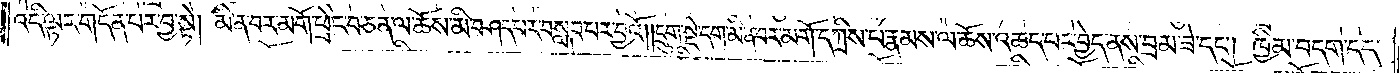འདི་ལྟར་གདོན་པར་བྱ་སྟེ། མི་ན་བར་མགོ་ཕྲེང་བ་ཅན་ལ་ཆོས་མི་བཤད་པར་བསླབ་པར་བྱའོ། །དྲུག་སྡེ་དག་མི་ན་བར་མགོ་དཀྲིས་པ་རྣམས་ལ་ཆོས་འཆད་པར་བྱེད་ནས་བྲམ་ཟེ་དང༌། ཁྱིམ་བདག་དད་
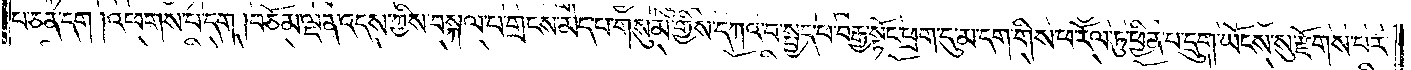པ་ཅན་དག །འཕགས་པ་དག །བཅོམ་ལྡན་འདས་ཀྱིས་བསྐལ་པ་གྲངས་མེད་པ་གསུམ་གྱིས་དཀའ་བ་སྤྱད་པ་བརྒྱ་སྟོང་ཕྲག་དུ་མ་དག་གིས་ཕ་རོལ་ཏུ་ཕྱིན་པ་དྲུག་ཡོངས་སུ་རྫོགས་པར་
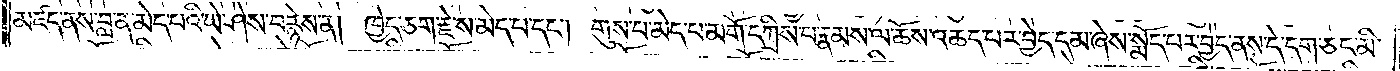མཛད་ནས་བླ་ན་མེད་པའི་ཡེ་ཤེས་བརྙེས་ན། ཁྱེད་ཅག་རྗེ་ས་མེད་པ་དང༌། གུས་པ་མེད་པ་མགོ་དཀྲིས་པ་རྣམས་ལ་ཆོས་འཆད་པར་བྱེད་དམ་ཞེས་སྨོད་པར་བྱེད་ནས་དེ་དག་ཅང་མི་
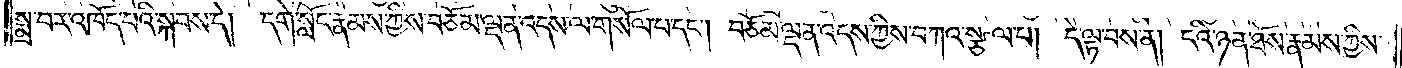སྨྲ་བར་འཁོད་པའི་སྐབས་དེ། དགེ་སློང་རྣམས་ཀྱིས་བཅོམ་ལྡན་འདས་ལ་གསོལ་པ་དང༌། བཅོམ་ལྡན་འདས་ཀྱིས་བཀའ་སྩལ་པ། དེ་ལྟ་བས་ན། ངའི་ཉན་ཐོས་རྣམས་ཀྱིས་
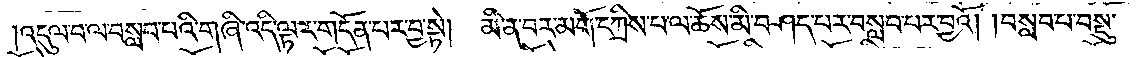།འདུལ་བ་ལ་བསླབ་པའི་གཞི་འདི་ལྟར་གདོན་པར་བྱ་སྟེ། མི་ན་བར་མགོ་དཀྲིས་པ་ལ་ཆོས་མི་བཤད་པར་བསླབ་པར་བྱའོ། །བསླབ་པ་བསྡུ་
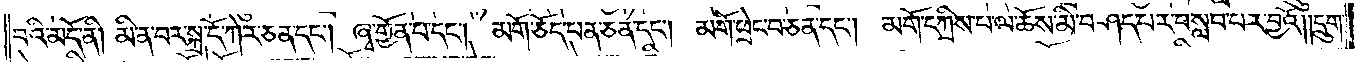བའི་མདོ་ནི། མི་ན་བར་སྐྲ་དོ་ཀེར་ཅན་དང༌། ཞྭ་གྱོན་པ་དང༌། མགོ་ཅོད་པན་ཅན་དང༌། མགོ་ཕྲེང་བ་ཅན་དང༌། མགོ་དཀྲིས་པ་ལ་ཆོས་མི་བཤད་པར་བསླབ་པར་བྱའོ། །དྲུག་
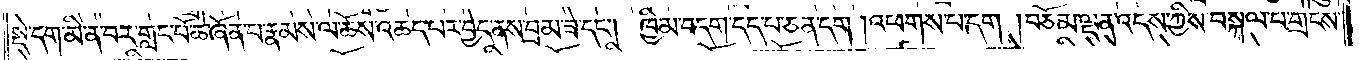སྡེ་དག་མི་ན་བར་གླང་པོ་ཆེ་ཞོན་པ་རྣམས་ལ་ཆོས་འཆད་པར་བྱེད་ནས་བྲམ་ཟེ་དང༌། ཁྱིམ་བདག་དད་པ་ཅན་དག །འཕགས་པ་དག །བཅོམ་ལྡན་འདས་ཀྱིས་བསྐལ་པ་གྲངས་
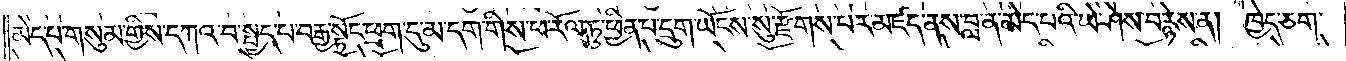མེད་པ་གསུམ་གྱིས་དཀའ་བ་སྤྱད་པ་བརྒྱ་སྟོང་ཕྲག་དུ་མ་དག་གིས་ཕ་རོལ་ཏུ་ཕྱིན་པ་དྲུག་ཡོངས་སུ་རྫོགས་པར་མཛད་ནས་བླ་ན་མེད་པའི་ཡེ་ཤེས་བརྙེས་ན། ཁྱེད་ཅག་
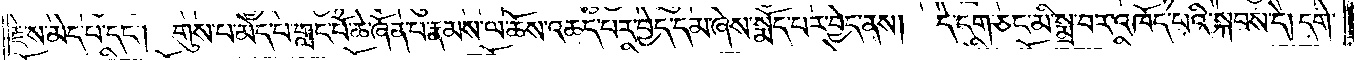རྗེས་མེད་པ་དང༌། གུས་པ་མེད་པ་གླང་པོ་ཆེ་ཞོན་པ་རྣམས་ལ་ཆོས་འཆད་པར་བྱེད་དམ་ཞེས་སྨོད་པར་བྱེད་ནས། དེ་དག་ཅང་མི་སྨྲ་བར་འཁོད་པའི་སྐབས་དེ། དགེ་
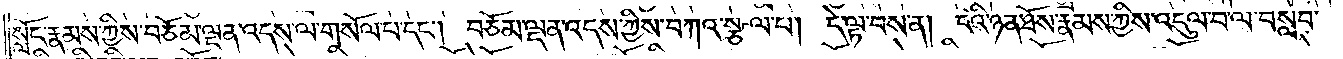སློང་རྣམས་ཀྱིས་བཅོམ་ལྡན་འདས་ལ་གསོལ་པ་དང༌། བཅོམ་ལྡན་འདས་ཀྱིས་བཀའ་སྩལ་པ། དེ་ལྟ་བས་ན། ངའི་ཉན་ཐོས་རྣམས་ཀྱིས་འདུལ་བ་ལ་བསླབ་
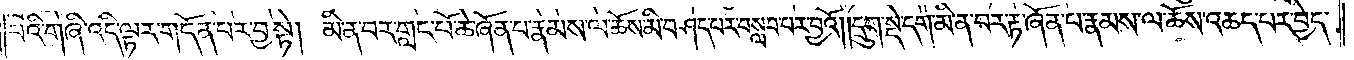པའི་གཞི་འདི་ལྟར་གདོན་པར་བྱ་སྟེ། མི་ན་བར་གླང་པོ་ཆེ་ཞོན་པ་རྣམས་ལ་ཆོས་མི་བཤད་པར་བསླབ་པར་བྱའོ། །དྲུག་སྡེ་དག་མི་ན་བར་རྟ་ཞོན་པ་རྣམས་ལ་ཆོས་འཆད་པར་བྱེད་
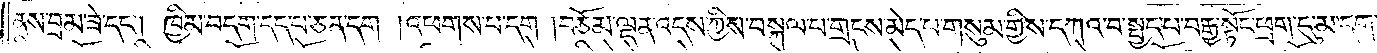ནས་བྲམ་ཟེ་དང༌། ཁྱིམ་བདག་དད་པ་ཅན་དག །འཕགས་པ་དག །བཅོམ་ལྡན་འདས་ཀྱིས་བསྐལ་པ་གྲངས་མེད་པ་གསུམ་གྱིས་དཀའ་བ་སྤྱད་པ་བརྒྱ་སྟོང་ཕྲག་དུ་མ་དག་
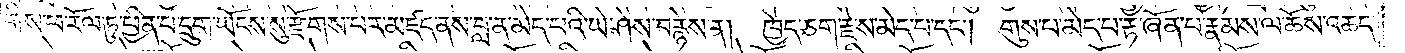གིས་ཕ་རོལ་ཏུ་ཕྱིན་པ་དྲུག་ཡོངས་སུ་རྫོགས་པར་མཛད་ནས་བླ་ན་མེད་པའི་ཡེ་ཤེས་བརྙེས་ན། ཁྱེད་ཅག་རྗེ་ས་མེད་པ་དང༌། གུས་པ་མེད་པ་རྟ་ཞོན་པ་རྣམས་ལ་ཆོས་འཆད་
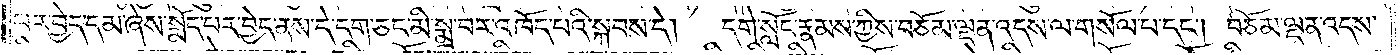པར་བྱེད་དམ་ཞེས་སྨོད་པར་བྱེད་ནས་དེ་དག་ཅང་མི་སྨྲ་བར་འཁོད་པའི་སྐབས་དེ། དགེ་སློང་རྣམས་ཀྱིས་བཅོམ་ལྡན་འདས་ལ་གསོལ་པ་དང༌། བཅོམ་ལྡན་འདས་
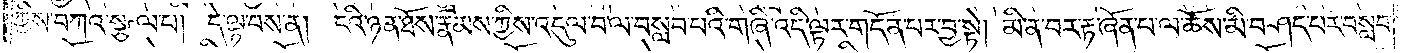ཀྱིས་བཀའ་སྩལ་པ། དེ་ལྟ་བས་ན། ངའི་ཉན་ཐོས་རྣམས་ཀྱིས་འདུལ་བ་ལ་བསླབ་པའི་གཞི་འདི་ལྟར་གདོན་པར་བྱ་སྟེ། མི་ན་བར་རྟ་ཞོན་པ་ལ་ཆོས་མི་བཤད་པར་བསླབ་
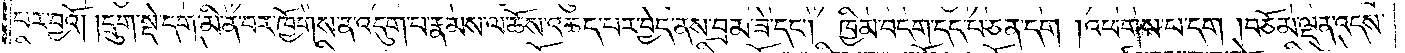པར་བྱའོ། །དྲུག་སྡེ་དག་མི་ན་བར་ཁྱོགས་ན་འདུག་པ་རྣམས་ལ་ཆོས་འཆད་པར་བྱེད་ནས་བྲམ་ཟེ་དང༌། ཁྱིམ་བདག་དད་པ་ཅན་དག །འཕགས་པ་དག །བཅོམ་ལྡན་འདས་
